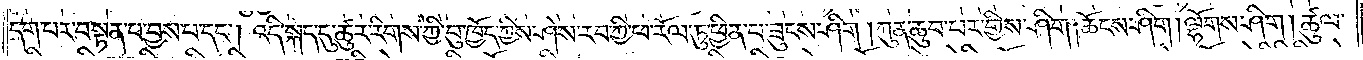དག་པར་བསྟན་པ་བྱས་པ་དང༌། འདི་སྐད་དུ་ཚུར་རིགས་ཀྱི་བུ་ཁྱོད་ཀྱིས་ཤེས་རབ་ཀྱི་ཕ་རོལ་ཏུ་ཕྱིན་པ་ཟུངས་ཤིག །ཀུན་ཆུབ་པར་གྱིས་ཤིག །ཆོངས་ཤིག། ལྷོགས་ཤིག །ཚུལ་
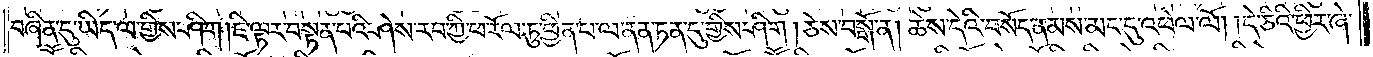བཞིན་དུ་ཡིད་ལ་གྱིས་ཤིག །ཇི་ལྟར་བསྟན་པའི་ཤེས་རབ་ཀྱི་ཕ་རོལ་ཏུ་ཕྱིན་པ་ལ་ནན་ཏན་དུ་གྱིས་ཤིག །ཅེས་བསྒོ་ན། ཆེས་དེའི་བསོད་ནམས་མང་དུ་འཕེལ་ལོ། །དེ་ཅིའི་ཕྱིར་ཞེ་
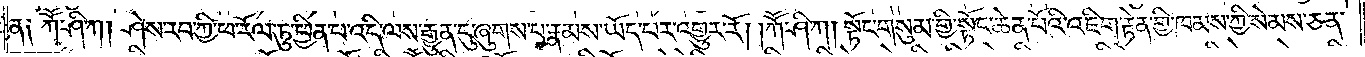ན༑ ཀཽ་ཤི་ཀ། ཤེས་རབ་ཀྱི་ཕ་རོལ་ཏུ་ཕྱིན་པ་འདི་ལས་རྒྱུན་དུ་ཞུགས་པ་རྣམས་ཡོད་པར་འགྱུར་རོ། །ཀཽ་ཤི་ཀ། སྟོང་གསུམ་གྱི་སྟོང་ཆེན་པོའི་འཇིག་རྟེན་གྱི་ཁམས་ཀྱི་སེམས་ཅན་
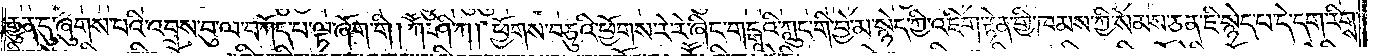རྒྱུན་དུ་ཞུགས་པའི་འབྲས་བུ་ལ་བཀོད་པ་ལྟ་ཞོག་གི །ཀཽ་ཤི་ཀ། ཕྱོགས་བཅུའི་ཕྱོགས་རེ་རེ་ཞིང་གངྒཱའི་ཀླུང་གི་བྱེ་མ་སྙེད་ཀྱི་འཇིག་རྟེན་གྱི་ཁམས་ཀྱི་སེམས་ཅན་ཇི་སྙེད་པ་དེ་དག་རིགས་
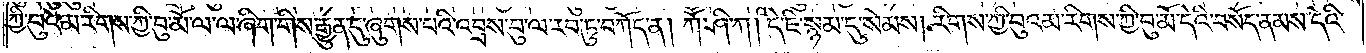ཀྱི་བུའམ་རིགས་ཀྱི་བུ་མོ་ལ་ལ་ཞིག་གིས་རྒྱུན་དུ་ཞུགས་པའི་འབྲས་བུ་ལ་རབ་ཏུ་བཀོད་ན། ཀཽ་ཤི་ཀ། དེ་ཇི་སྙམ་དུ་སེམས། རིགས་ཀྱི་བུའམ་རིགས་ཀྱི་བུ་མོ་དེའི་བསོད་ནམས་དེའི་
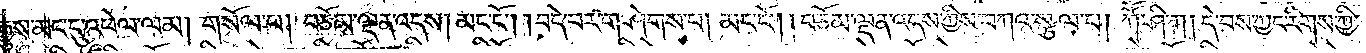རྒྱུས་མང་དུ་འཕེལ་ལམ། གསོལ་པ། བཅོམ་ལྡན་འདས། མང་ངོ༌། །བདེ་བར་གཤེགས་པ། མང་ངོ༌། །བཅོམ་ལྡན་འདས་ཀྱིས་བཀའ་སྩལ་པ། ཀཽ་ཤི་ཀ། དེ་བས་ཀྱང་རིགས་ཀྱི་
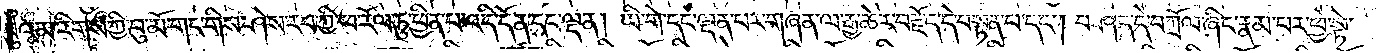བུའམ་རིགས་ཀྱི་བུ་མོ་གང་གིས་ཤེས་རབ་ཀྱི་ཕ་རོལ་ཏུ་ཕྱིན་པ་འདི་དོན་དང་ལྡན། ཡི་གེ་དང་ལྡན་པར་གཞན་ལ་རྒྱ་ཆེར་བརྗོད་དེ་བསྟན་པ་དང༌། བཤད་དེ་བཀྲོལ་ཞིང་རྣམ་པར་ཕྱེ་སྟེ་
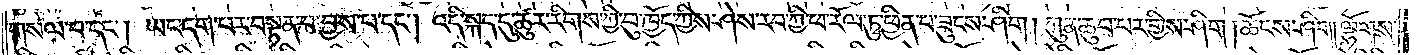གསལ་བ་དང༌། ཡང་དག་པར་བསྟན་པ་བྱས་པ་དང༌། འདི་སྐད་དུ་ཚུར་རིགས་ཀྱི་བུ་ཁྱོད་ཀྱིས་ཤེས་རབ་ཀྱི་ཕ་རོལ་ཏུ་ཕྱིན་པ་ཟུངས་ཤིག །ཀུན་ཆུབ་པར་གྱིས་ཤིག །ཆོངས་ཤིག །ལྷོགས་
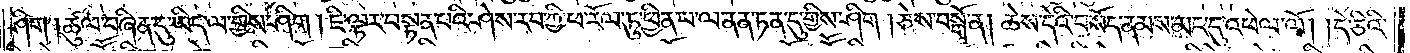ཤིག །ཚུལ་བཞིན་དུ་ཡིད་ལ་གྱིས་ཤིག །ཇི་ལྟར་བསྟན་པའི་ཤེས་རབ་ཀྱི་ཕ་རོལ་ཏུ་ཕྱིན་པ་ལ་ནན་ཏན་དུ་གྱིས་ཤིག །ཅེས་བསྒོ་ན། ཆེས་དེའི་བསོད་ནམས་མང་དུ་འཕེལ་ལོ། །དེའི་ཅིའི་
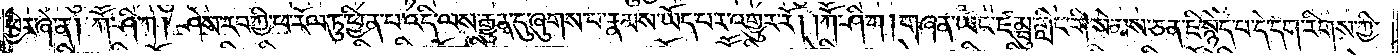ཕྱིར་ཞེ་ན། ཀཽ་ཤི་ཀ། ཤེས་རབ་ཀྱི་ཕ་རོལ་ཏུ་ཕྱིན་པ་འདི་ལས་རྒྱུན་དུ་ཞུགས་པ་རྣམས་ཡོད་པར་འགྱུར་རོ། །ཀཽ་ཤི་ཀ། གཞན་ཡང་ཛམྦུ་གླིང་གི་སེམས་ཅན་ཇི་སྙེད་པ་དེ་དག་རིགས་ཀྱི་
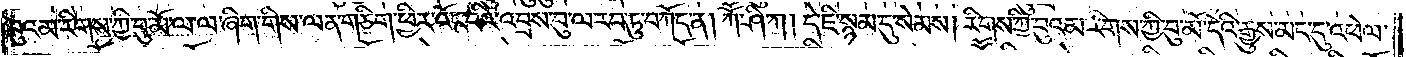བུའམ་རིགས་ཀྱི་བུ་མོ་ལ་ལ་ཞིག་གིས་ལན་གཅིག་ཕྱིར་འོང་བའི་འབྲས་བུ་ལ་རབ་ཏུ་བཀོད་ན། ཀཽ་ཤི་ཀ། དེ་ཇི་སྙམ་དུ་སེམས། རིགས་ཀྱི་བུའམ་རིགས་ཀྱི་བུ་མོ་དེའི་བསོད་ནམས་དེའི་རྒྱས་མང་དུ་འཕེལ་
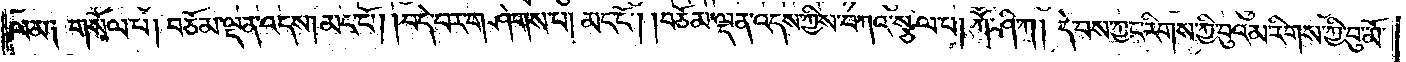ལམ༑ གསོལ་པ། བཅོམ་ལྡན་འདས། མང་ངོ༌། །བདེ་བར་གཤེགས་པ། མང་ངོ༌། །བཅོམ་ལྡན་འདས་ཀྱིས་བཀའ་སྩལ་པ། ཀཽ་ཤི་ཀ། དེ་བས་ཀྱང་རིགས་ཀྱི་བུའམ་རིགས་ཀྱི་བུ་མོ་
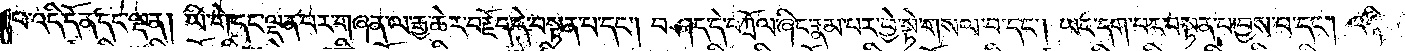པ་འདི་དོན་དང་ལྡན། ཡི་གེ་དང་ལྡན་པར་གཞན་ལ་རྒྱ་ཆེར་བརྗོད་དེ་བསྟན་པ་དང༌། བཤད་དེ་བཀྲོལ་ཞིང་རྣམ་པར་ཕྱེ་སྟེ་གསལ་བ་དང༌། ཡང་དག་པར་བསྟན་པ་བྱས་པ་དང༌། འདི་
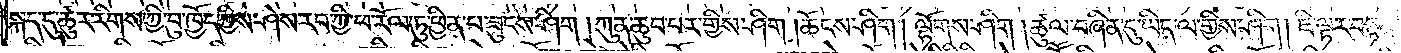སྐད་དུ་ཚུར་རིགས་ཀྱི་བུ་ཁྱོད་ཀྱིས་ཤེས་རབ་ཀྱི་ཕ་རོལ་ཏུ་ཕྱིན་པ་ཟུངས་ཤིག །ཀུན་ཆུབ་པར་གྱིས་ཤིག །ཆོངས་ཤིག །ལྷོགས་ཤིག །ཚུལ་བཞིན་དུ་ཡིད་ལ་གྱིས་ཤིག །ཇི་ལྟར་བསྟན་
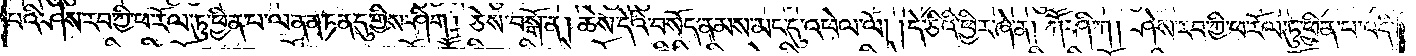པའི་ཤེས་རབ་ཀྱི་ཕ་རོལ་ཏུ་ཕྱིན་པ་ལ་ནན་ཏན་དུ་གྱིས་ཤིག །ཅེས་བསྒོ་ན། ཆེས་དེའི་བསོད་ནམས་མང་དུ་འཕེལ་ལོ། །དེ་ཅིའི་ཕྱིར་ཞེ་ན། ཀཽ་ཤི་ཀ། ཤེས་རབ་ཀྱི་ཕ་རོལ་ཏུ་ཕྱིན་པ་འདི་
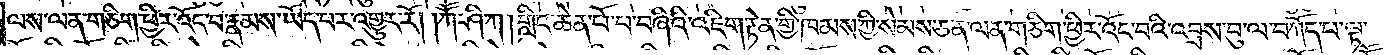ལས་ལན་གཅིག་ཕྱིར་འོང་བ་རྣམས་ཡོད་པར་འགྱུར་རོ། །ཀཽ་ཤི་ཀ། གླིང་ཆེན་པོ་པ་བཞིའི་འཇིག་རྟེན་གྱི་ཁམས་ཀྱི་སེམས་ཅན་ལན་ཅིག་ཕྱིར་འོང་བའི་འབྲས་བུ་ལ་བཀོད་པ་ལྟ་
